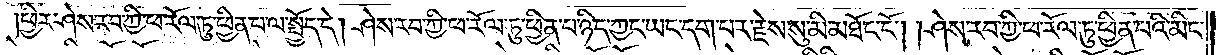ཕྱིར་ཤེས་རབ་ཀྱི་ཕ་རོལ་ཏུ་ཕྱིན་པ་ལ་སྤྱོད་དེ། ཤེས་རབ་ཀྱི་ཕ་རོལ་ཏུ་ཕྱིན་པ་ཉིད་ཀྱང་ཡང་དག་པར་རྗེས་སུ་མི་མཐོང་ངོ༌། །ཤེས་རབ་ཀྱི་ཕ་རོལ་ཏུ་ཕྱིན་པའི་མིང་
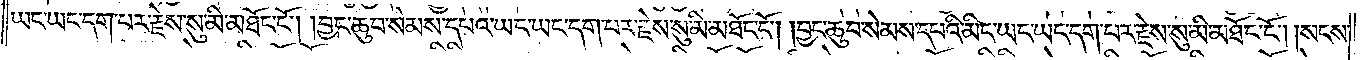ཡང་ཡང་དག་པར་རྗེས་སུ་མི་མཐོང་ངོ༌། །བྱང་ཆུབ་སེམས་དཔའ་ཡང་ཡང་དག་པར་རྗེས་སུ་མི་མཐོང་ངོ༌། །བྱང་ཆུབ་སེམས་དཔའི་མིང་ཡང་ཡང་དག་པར་རྗེས་སུ་མི་མཐོང་ངོ༌། །སངས་
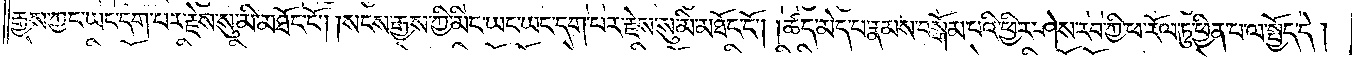རྒྱས་ཀྱང་ཡང་དག་པར་རྗེས་སུ་མི་མཐོང་ངོ༌། །སངས་རྒྱས་ཀྱི་མིང་ཡང་ཡང་དག་པར་རྗེས་སུ་མི་མཐོང་ངོ༌། །ཚད་མེད་པ་རྣམས་བསྒོམ་པའི་ཕྱིར་ཤེས་རབ་ཀྱི་ཕ་རོལ་ཏུ་ཕྱིན་པ་ལ་སྤྱོད་དེ་།
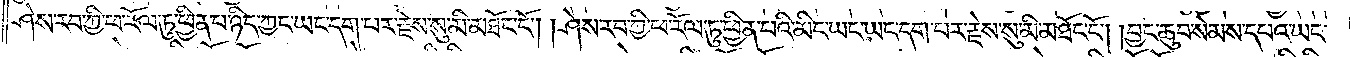ཤེས་རབ་ཀྱི་ཕ་རོལ་ཏུ་ཕྱིན་པ་ཉིད་ཀྱང་ཡང་དག་པར་རྗེས་སུ་མི་མཐོང་ངོ༌། །ཤེས་རབ་ཀྱི་ཕ་རོལ་ཏུ་ཕྱིན་པའི་མིང་ཡང་ཡང་དག་པར་རྗེས་སུ་མི་མཐོང་ངོ༌། །བྱང་ཆུབ་སེམས་དཔའ་ཡང་
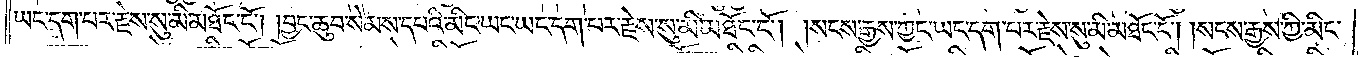ཡང་དག་པར་རྗེས་སུ་མི་མཐོང་ངོ༌། །བྱང་ཆུབ་སེམས་དཔའི་མིང་ཡང་ཡང་དག་པར་རྗེས་སུ་མི་མཐོང་ངོ༌། །སངས་རྒྱས་ཀྱང་ཡང་དག་པར་རྗེས་སུ་མི་མཐོང་ངོ༌། །སངས་རྒྱས་ཀྱི་མིང་
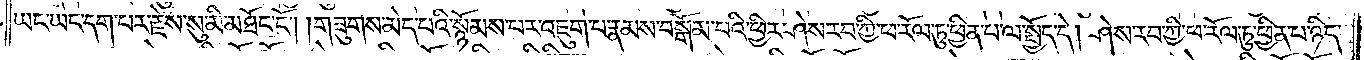ཡང་ཡང་དག་པར་རྗེས་སུ་མི་མཐོང་ངོ༌། །གཟུགས་མེད་པའི་སྙོམས་པར་འཇུག་པ་རྣམས་བསྒོམ་པའི་ཕྱིར་ཤེས་རབ་ཀྱི་ཕ་རོལ་ཏུ་ཕྱིན་པ་ལ་སྤྱོད་དེ། ཤེས་རབ་ཀྱི་ཕ་རོལ་ཏུ་ཕྱིན་པ་ཉིད་
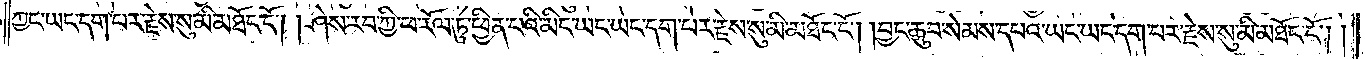ཀྱང་ཡང་དག་པར་རྗེས་སུ་མི་མཐོང་ངོ༌། །ཤེས་རབ་ཀྱི་ཕ་རོལ་ཏུ་ཕྱིན་པའི་མིང་ཡང་ཡང་དག་པར་རྗེས་སུ་མི་མཐོང་ངོ༌། །བྱང་ཆུབ་སེམས་དཔའ་ཡང་ཡང་དག་པར་རྗེས་སུ་མི་མཐོང་ངོ༌། །
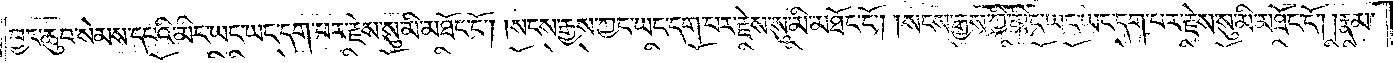བྱང་ཆུབ་སེམས་དཔའི་མིང་ཡང་ཡང་དག་པར་རྗེས་སུ་མི་མཐོང་ངོ༌། །སངས་རྒྱས་ཀྱང་ཡང་དག་པར་རྗེས་སུ་མི་མཐོང་ངོ༌། །སངས་རྒྱས་ཀྱི་མིང་ཡང་ཡང་དག་པར་རྗེས་སུ་མི་མཐོང་ངོ༌། །རྣམ་
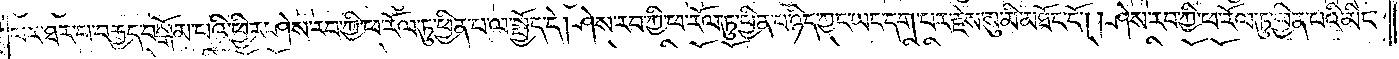པར་ཐར་པ་བརྒྱད་བསྒོམ་པའི་ཕྱིར་ཤེས་རབ་ཀྱི་ཕ་རོལ་ཏུ་ཕྱིན་པ་ལ་སྤྱོད་དེ། ཤེས་རབ་ཀྱི་ཕ་རོལ་ཏུ་ཕྱིན་པ་ཉིད་ཀྱང་ཡང་དག་པར་རྗེས་སུ་མི་མཐོང་ངོ༌། །ཤེས་རབ་ཀྱི་ཕ་རོལ་ཏུ་ཕྱིན་པའི་མིང་
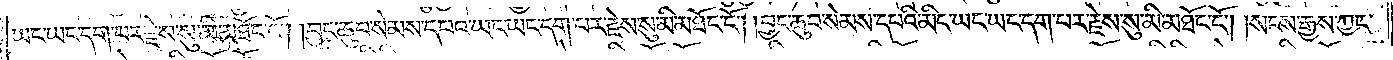ཡང་ཡང་དག་པར་རྗེས་སུ་མི་མཐོང་ངོ༌། །བྱང་ཆུབ་སེམས་དཔའ་ཡང་ཡང་དག་པར་རྗེས་སུ་མི་མཐོང་ངོ༌། །བྱང་ཆུབ་སེམས་དཔའི་མིང་ཡང་ཡང་དག་པར་རྗེས་སུ་མི་མཐོང་ངོ༌། །སངས་རྒྱས་ཀྱང་
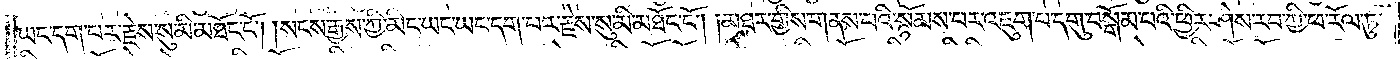ཡང་དག་པར་རྗེས་སུ་མི་མཐོང་ངོ༌། །སངས་རྒྱས་ཀྱི་མིང་ཡང་ཡང་དག་པར་རྗེས་སུ་མི་མཐོང་ངོ༌། །མཐར་གྱིས་གནས་པའི་སྙོམས་པར་འཇུག་པ་དགུ་བསྒོམ་པའི་ཕྱིར་ཤེས་རབ་ཀྱི་ཕ་རོལ་ཏུ་
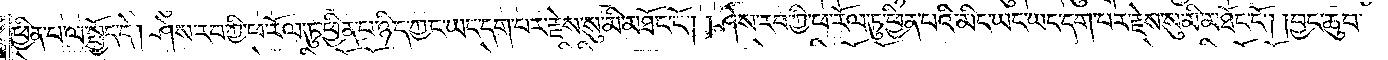ཕྱིན་པ་ལ་སྤྱོད་དེ། ཤེས་རབ་ཀྱི་ཕ་རོལ་ཏུ་ཕྱིན་པ་ཉིད་ཀྱང་ཡང་དག་པར་རྗེས་སུ་མི་མཐོང་ངོ༌། །ཤེས་རབ་ཀྱི་ཕ་རོལ་ཏུ་ཕྱིན་པའི་མིང་ཡང་ཡང་དག་པར་རྗེས་སུ་མི་མཐོང་ངོ༌། །བྱང་ཆུབ་
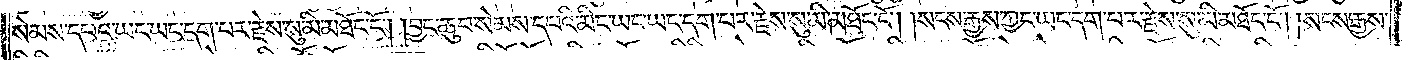སེམས་དཔའ་ཡང་ཡང་དག་པར་རྗེས་སུ་མི་མཐོང་ངོ༌། །བྱང་ཆུབ་སེམས་དཔའི་མིང་ཡང་ཡང་དག་པར་རྗེས་སུ་མི་མཐོང་ངོ༌། །སངས་རྒྱས་ཀྱང་ཡང་དག་པར་རྗེས་སུ་མི་མཐོང་ངོ༌། །སངས་རྒྱས་
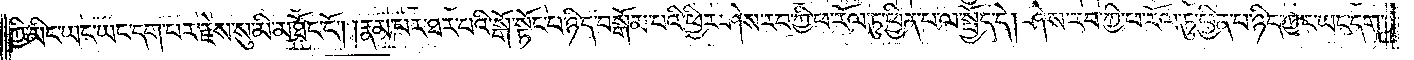ཀྱི་མིང་ཡང་ཡང་དག་པར་རྗེས་སུ་མི་མཐོང་ངོ༌། །རྣམ་པར་ཐར་པའི་སྒོ་སྟོང་པ་ཉིད་བསྒོམ་པའི་ཕྱིར་ཤེས་རབ་ཀྱི་ཕ་རོལ་ཏུ་ཕྱིན་པ་ལ་སྤྱོད་དེ། ཤེས་རབ་ཀྱི་ཕ་རོལ་ཏུ་ཕྱིན་པ་ཉིད་ཀྱང་ཡང་དག་
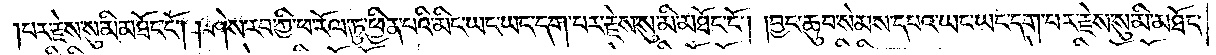པར་རྗེས་སུ་མི་མཐོང་ངོ༌། །ཤེས་རབ་ཀྱི་ཕ་རོལ་ཏུ་ཕྱིན་པའི་མིང་ཡང་ཡང་དག་པར་རྗེས་སུ་མི་མཐོང་ངོ༌། །བྱང་ཆུབ་སེམས་དཔའ་ཡང་ཡང་དག་པར་རྗེས་སུ་མི་མཐོང་
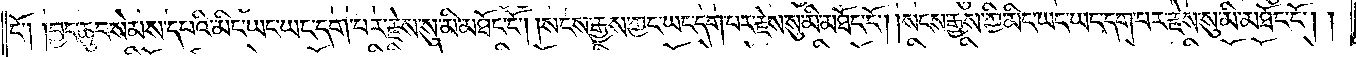ངོ༌། །བྱང་ཆུབ་སེམས་དཔའི་མིང་ཡང་ཡང་དག་པར་རྗེས་སུ་མི་མཐོང་ངོ༌། །སངས་རྒྱས་ཀྱང་དག་པར་རྗེས་སུ་མི་མཐོང་ངོ༌། །སངས་རྒྱས་ཀྱི་མིང་ཡང་ཡང་དག་པར་རྗེས་སུ་མི་མཐོང་ངོ༌། །
